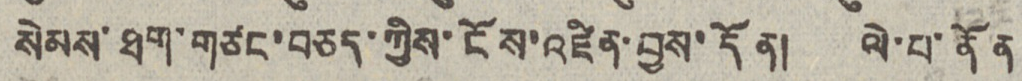སེམས་ཐག་གཙང་བཅད་ཀྱིས་ངོས་འཛིན་བྱས་དོན། ལེ་པ་ནོན
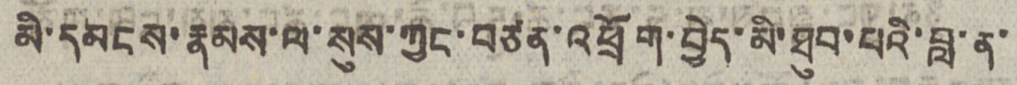མི་དམངས་རྣམས་ལ་སུས་ཀྱང་བཙན་འཕྲོག་བྱེད་མི་ཐུབ་པའི་བླ་ན་
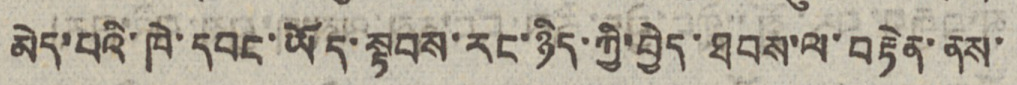མེད་པའི་ཁེ་དབང་ཡོད་སྟབས་རང་ཉིད་ཀྱི་བྱེད་ཐབས་ལ་བརྟེན་ནས་
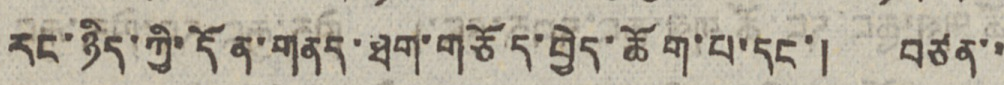རང་ཉིད་ཀྱི་དོན་གནད་ཐག་གཅོད་བྱེད་ཆོག་པ་དང་། བཙན་་
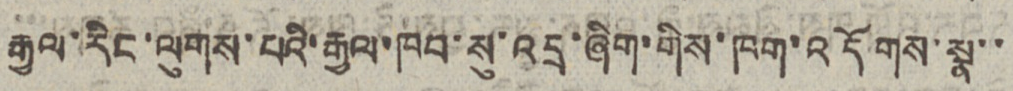རྒྱལ་རིང་ལུགས་པའི་རྒྱལ་ཁབ་སུ་འདྲ་ཞིག་གིས་ཁག་འདོགས་སྣ་་
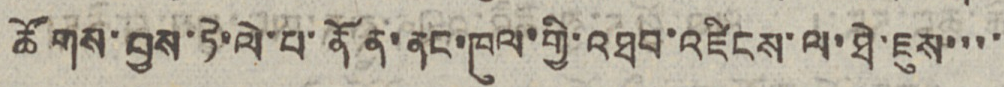ཚོགས་བྱས་ཏེ་ལེ་པ་ནོན་ནང་ཁུལ་གྱི་འཐབ་འཛིངས་ལ་ཐེ་ཇུས་་་་
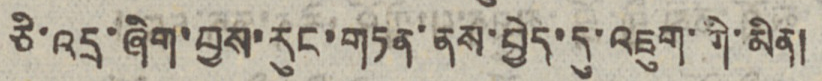ཅི་འདྲ་ཞིག་བྱས་རུང་གཏན་ནས་བྱེད་དུ་འཇུག་གི་མིན།
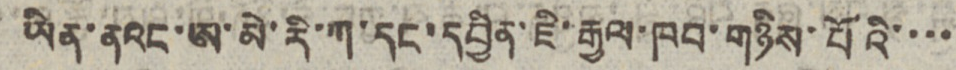ཡིན་ནའང་ཨ་མེ་རི་ཀ་དང་དབྱིན་ཇི་རྒྱལ་ཁབ་གཉིས་པོའི་་་་
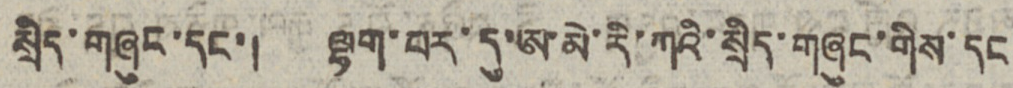སྲིད་གཞུང་དང་། ལྷག་པར་དུ་ཨ་མེ་རི་ཀའི་སྲིད་གཞུང་གིས་དང
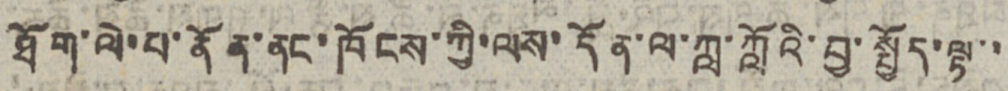ཐོག་ལེ་པ་ནོན་ནང་ཁོངས་ཀྱི་ལས་དོན་ལ་ཀླ་ཀློའི་བྱ་སྤྱོད་ལྟ་་
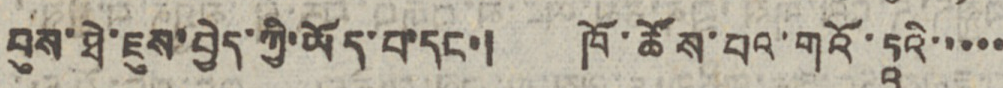བུས་ཐེ་ཇུས་བྱེད་ཀྱི་ཡོད་པ་དང་། ཁོ་ཚོས་པའ་གའོ་ཏཱའི་་་་་
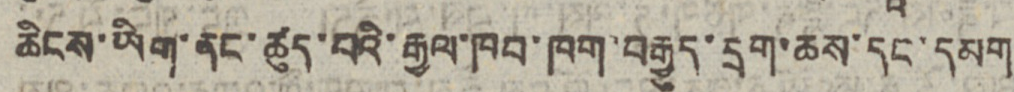ཆིངས་ཡིག་ནང་ཚུད་པའི་རྒྱལ་ཁབ་ཁག་བརྒྱུད་དྲག་ཆས་དང་དམག
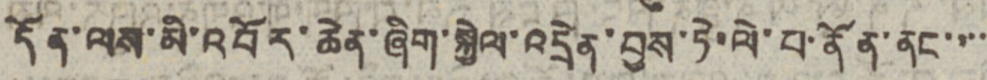དོན་ལས་མི་འབོར་ཆེན་ཞིག་སྐྱེལ་འདྲེན་བྱས་ཏེ་ལེ་པ་ནོན་ནང་་་་་
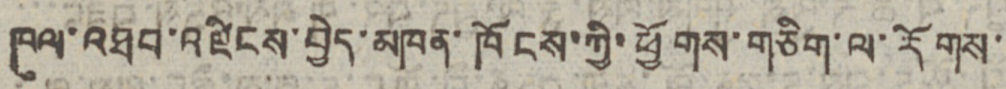ཁུལ་འཐབ་འཛིངས་བྱེད་མཁན་ཁོངས་ཀྱི་ཕྱོགས་གཅིག་ལ་རོགས་
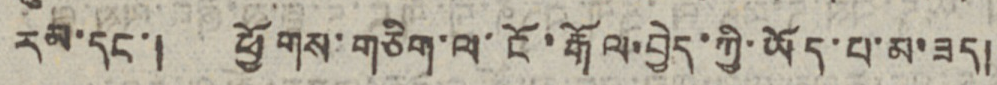རམ་དང་། ཕྱོགས་གཅིག་ལ་ངོ་རྒོལ་བྱེད་ཀྱི་ཡོད་པ་མ་ཟད།
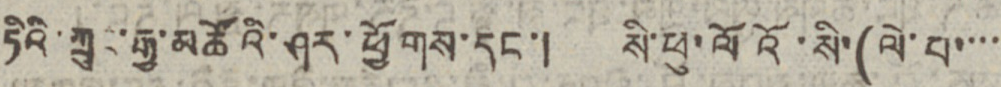ཏིའི་ཀྲུང་རྒྱ་མཚོའི་ཤར་ཕྱོགས་དང་། སི་ཕུ་ལོའོ་སི་(ལེ་པ་་་་
